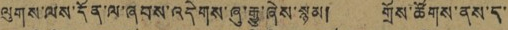ལུགས་ལས་དོན་ལ་ཞབས་འདེགས་ཞུ་རྒྱུ་ཞེས་སྙམ། གྲོས་ཚོགས་ནས་ད་
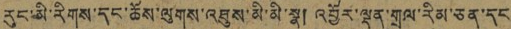རུང་མི་རིགས་དང་ཆོས་ལུགས་འཐུས་མི་མི་སྣ། འབྱོར་ལྡན་གྲོལ་རིམ་ཅན་དང
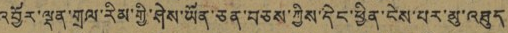འབྱོར་ལྡན་གྲལ་རིམ་གྱི་ཤེས་ཡོན་ཅན་བཅས་ཀྱིས་དེང་ཕྱིན་ངེས་པར་མུ་འཐུད
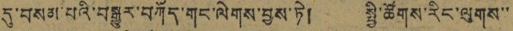དུ་བསམ་པའི་བསྒྱུར་བཀོད་གང་ལེགས་བྱས་ཏེ། སྤྱི་ཚོགས་རིང་ལུགས་་
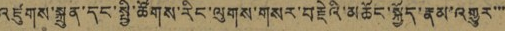འཛུགས་སྐྲུན་དང་སྤྱི་ཚོགས་རིང་ལུགས་གསར་བརྗེའི་མཆོང་སྐྱོད་རྣམ་འགྱུར་་་
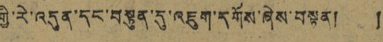གྱི་རེ་འདུན་དང་བསྟུན་དུ་འཇུག་དགོས་ཞེས་བསྟན། །
